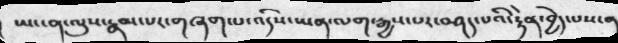ཡང་ན་ལུས་རྣམ་པར་གཞག་པ་འདིས་ཡན་ལག་རྒྱས་པར་བཤད་པའི་རྟེན་བྱེད་པས་ན
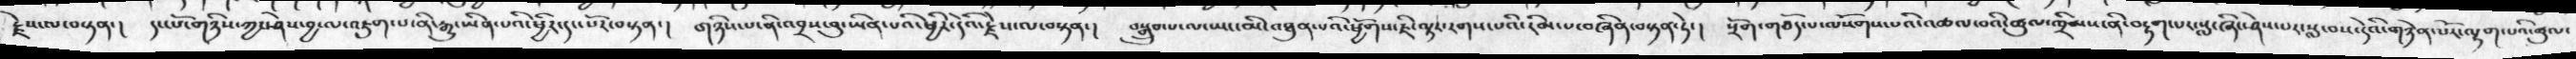རྗེས་ལ་བསྟན་། དང་པོ་གཉིས་ཀྱང་ཤེས་བྱ་ལ་འཇུག་པ་ནི་རྒྱུ་ཡིན་པའི་ཕྱིར་དང་པོར་བསྟན་། གཉིས་ནི་འབྲས་བུ་ཡིན་པའི་ཕྱིར་དེའི་རྗེས་ལ་བསྟན་། བསྒྲུབ་པ་ལ་ཡང་མི་མཐུན་པའི་ཕྱོགས་ཇི་ལྟར་རགས་པའི་རིམ་པ་བཞིན་བསྟན་ཏེ་། སྲོག་གཅོད་པ་ལསོགས་པའི་འཆལ་བའི་ཚུལ་ཁྲིམས་ནི་བརྟག་པར་སླ་ཞིང་ཤེས་པར་སླ་བས་དེའི་གཉེན་པོར་ལྷག་པའི་ཚུལ་
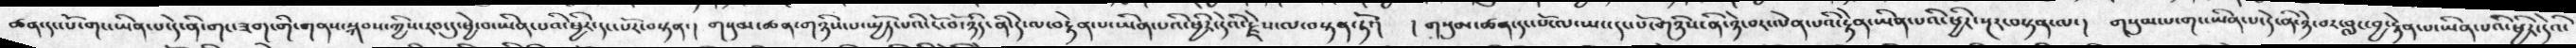ཚན་དང་པོ་གང་ཡིན་པ་དེ་ནི་གང་ཟག་གི་གནས་སྐབས་ཀྱིས་རབ་དུ་ཕྱེ་བ་ཡིན་པའི་ཕྱིར་དང་པོར་བསྟན་། གསུམ་ཚན་གཉིས་པ་སྤྱོད་པའི་ངོ་བོ་ཉིད་ནི་དེ་ལ་རྟེན་པ་ཡིན་པའི་ཕྱིར་དེའི་རྗེས་ལ་བསྟན་ཏོ་། །གསུམ་ཚན་དང་པོ་ལ་ཡང་དང་པོ་གཉིས་ནི་ཉེ་བར་ལེན་པའི་རྟེན་ཡིན་པའི་ཕྱིར་སྔར་བསྟན་ལ་། གསུམ་པ་གང་ཡིན་པ་དེ་ནི་ཉེ་བར་བླང་བྱ་རྟེན་པ་ཡིན་པའི་ཕྱིར་དེའི་
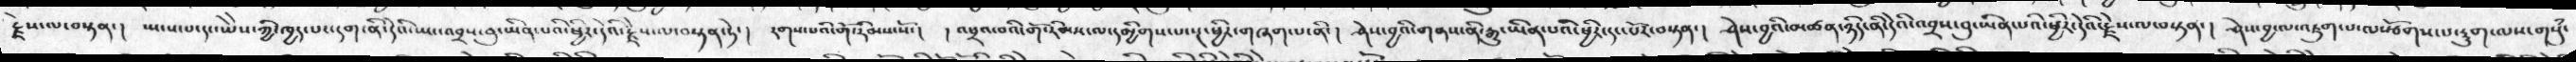རྗེས་ལ་བསྟན།  ཡངས་པ་དང་ཡེེས་ཀྱི་ཁྱད་པར་དག་ནི་དེའི་ཡང་འབྲས་བུ་ཡིན་པའི་ཕྱིར་དེའི་རྗེས་ལ་བསྟན་ཏེ་།   རགས་པའི་གོ་རིམས་སོ་། ། འཕྲའ་བའི་གོ་རིམས་ལ་དམྱིགས་པ་སྔ་ཕྱིར་གཞག་པ་ནི་།  ཤེས་བྱའི་གནས་ནི་རྒྱུ་ཡིན་པའི་ཕྱིར་དང་པོར་བསྟན་།  ཤེས་བྱའི་མཚན་ཉིད་ནི་དེའི་འབྲས་བུ་ཡིན་པའི་ཕྱིར་དེའི་རྗེས་ལ་བསྟན་།  ཤེས་བྱ་ལ་འཇུག་པ་ལརྩོགས་པ་དྱུག་ལས་གསུཾ་
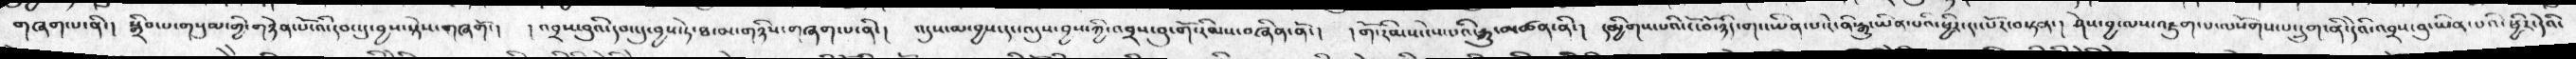གཞག་པ་ནི་།  སྒྲིབ་པ་གསུམ་གྱི་གཉེན་པོ་འི་དབང་དུ་བྱས་སྟེས་གཞགོ་།   ། འབྲས་བུའི་དབང་དུ་བྱས་ཏེ་ཐ་མ་གཉིས་གཞག་པ་ནི་།  འདུས་མ་བྱས་དང་འདུས་བྱས་ཀྱི་འབྲས་བུ་གོ་རིམས་བཞིན་ནོ་།  ། གོ་རིམས་ངེས་པའི་རྒྱུ་མཚན་ནི་།  དམྱིགས་པའི་ངོ་བོ་ཉིད་གང་ཡིན་པ་དེ་ནི་རྒྱུ་ཡིན་པའི་ཕྱིར་དང་པོར་བསྟན་།  ཤེས་བྱ་ལས་འཇུག་པ་ལསོགས་པ་དྲུག་ནི་དེའི་འབྲས་བུ་ཡིན་པའི་ཕྱིར་དེའི་
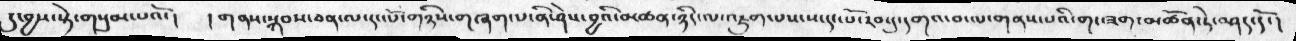དུ་བྱས་སྟེ་གསུམ་པའོ་།  ། གནས་སྐབས་བན་ལ་དང་པོ་གཉིས་གཞག་པ་ནི་ཤེས་བྱའི་མཚན་ཉིད་ལ་འཇུག་པས་ས་དང་པོ་རབ་དུ་དགའ་བ་ལ་གནས་པའི་གང་ཟག་མཚོན་ཏེ་བཤད་དོ་།
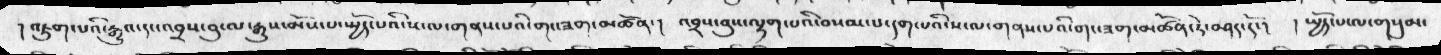། འཇུག་པའི་རྒྱུའ་དང་འབྲས་བུ་ལ་རྒུས་མོས་པ་སྤྱོད་པའི་ས་ལ་གནས་པའི་གང་ཟག་མཚོན་།   འབྲས་བུས་ལྷག་པའི་བསམ་པ་དག་པའི་ས་ལ་གནས་པའི་གང་ཟག་མཚོན་ཏེ་བཤད་དོ་།  ། སྤྱོད་པ་ལ་གསུམ་
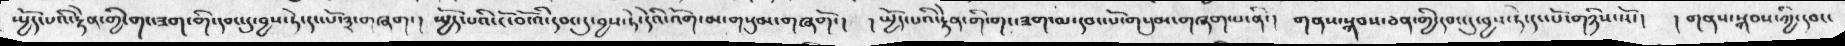སྤྱོད་པའི་རྟེན་གྱི་གང་ཟག་གི་དབང་དུ་བྱས་ཏེ་དང་པོ་༣་གཞག་།  སྤྱོད་པའི་ངོ་བོ་འི་དབང་དུ་བྱས་ཏེ་དེའི་འོག་མ་གསུམ་གཞགོ་།   ། སྤྱོད་པའི་རྟེན་གི་གང་ཟག་མ་དབང་པོ་གསུམ་གཞག་པ་ནི་།  གནས་སྐབས་ཅན་གྱི་དབང་དུ་བྱས་ཏེ་དང་པོ་གཉིས་སོ།  ། གནས་སྐབས་ཀྱི་དབང་
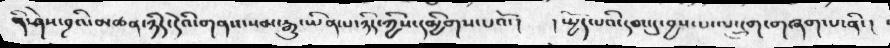ནི་ཤེས་བྱའི་མཚན་ཉིད་དེའི་གནས་སམ་རྒྱུ་ཡིན་པ་ཉིད་ཀྱིས་དམྱིགས་པའོ་།  །སྤྱོད་པའི་དབང་དུ་བྱས་པ་ལ་དྲུག་གཞག་པ་ནི་།
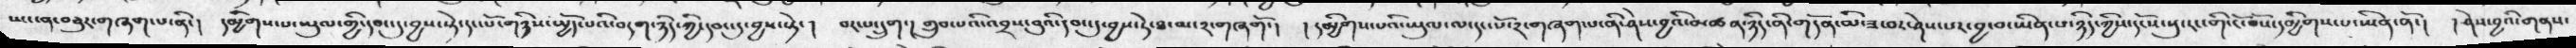ཡང་ན་བཅུར་གཞག་པ་ནི་། དམྱིགས་པ་ཡུལ་གྱི་དབང་དུ་བྱས་སྟེ་དང་པོ་གཉིས་སྤྱོད་པའི་བདག་ཉིད་ཀྱི་དབང་དུ་བྱས་སྟེ་། བར་པ་དྲུག་། གྲུབ་པའི་འབྲས་བུའི་དབང་དུ་བྱས་ཏེ་ཐ་མ་༢་གཞགོ་། །དམྱིགས་པའི་ཡུལ་ལ་དང་པོ་༢་གཞག་པ་ནི་ཤེས་བྱའི་མཚན་ཉིད་ནི་གདོན་མི་ཟ་བར་ཤེས་པར་བྱ་བ་ཡིན་པ་ཉིད་ཀྱིས་དངོས་སུ་རང་གི་ངོ་བོས་དམྱིགས་པ་ཡིན་ནོ་། །ཤེས་བྱའི་གནས་
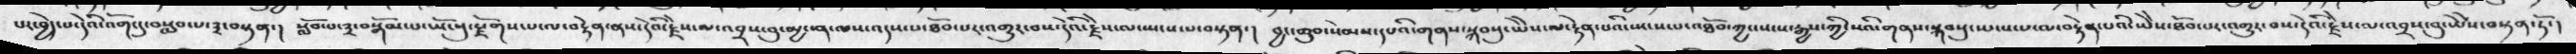པར་བྱེད་པ་དེའི་འོག་དུ་བསླབ་པ་༣་བསྟན་། སློབ་པ་༣་བསྒོམ་པ་ཡོངསུ་རྫོགས་པ་ལ་བརྟེན་ནས་དེའི་རྗེས་ལ་འབྲས་བུ་མྱ་ངན་ལས་འདས་པ་ཐོབ་པར་འགྱུར་བས་དེའི་རྗེས་ལ་ཡངས་པ་བསྟན་། བྱང་ཆུབ་སེམས་དཔའི་གནས་སྐབསུ་ཡཻས་ལ་རྟེན་པའི་ཡངས་པ་འཐོབ་ཀྱང་སངས་རྒྱས་ཀྱི་སའི་གནས་སྐབསུ་ཡངས་པ་ལ་བརྟེན་པའི་ཡཻས་ཐོབ་པར་འགྱུར་བས་དེའི་རྗེས་ལ་འབྲས་བུ་ཡཻས་བསྟན་ཏོ་།
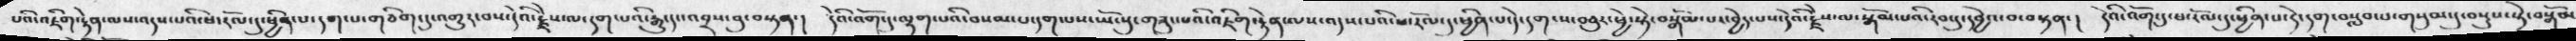པའི་འཇིག་རྟེན་ལས་འདས་པའི་ཕ་རོལ་དུ་ཕྱིན་པ་དག་ལ་གཅིག་དུ་འགྱུར་བས་དེའི་རྗེས་ལ་དག་པའི་རྒྱུ་དང་འབྲས་བུ་བསྟན་། དེའི་འོག་དུ་ལྷག་པའི་བསམ་པ་དག་པས་ཡོངས་སུ་བཟུང་བའི་འཇིག་རྟེན་ལས་འདས་པའི་ཕ་རོལ་དུ་ཕྱིན་པ་དེ་དག་ས་བཅུར་ཕྱེ་སྟེ་བསྒོམ་པར་བྱེད་པས་དེའི་རྗེས་ལ་སྒོམ་པའི་རབ་དུ་དབྱེའ་བ་བསྟན་། དེའི་འོག་དུ་ཕ་རོལ་དུ་ཕྱིན་པ་དེ་དག་བསླབ་པ་གསུམ་དུ་བསྡུས་སྟེ་བསྒོམ
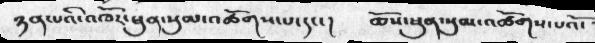ཉན་པའི་འཁོར་ཕུན་སུམ་འཚོགས་པ་དང་།  ཆོས་ཕུན་སུམ་འཚོགས་པའོ་
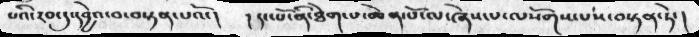པའི་རབ་དུ་དབྱེའ་བ་བསྟན་པའོ་།  ། དང་པོ་ནི་ཐེག་པ་ཆེན་པོ་ལ་ཞེས་པ་ལསོགས་པས་བསྟན་ཏེ་།
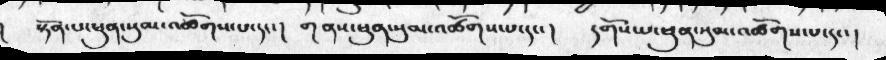སྟོན་པ་ཕུན་སུམ་འཚོགས་པ་དང་།  གནས་ཕུན་སུམ་འཚོགས་པ་དང་།  དགོས་པ་ཕུན་སུམ་འཚོགས་པ་དང་།
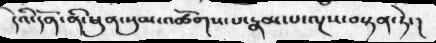དེའི་དོན་ནི་ཕུན་སུམ་འཚོགས་པ་རྣམ་པ་ལྔས་བསྟན་ཏེ་།
